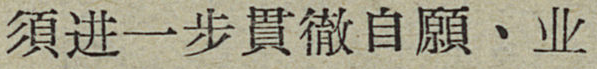須进一步貫徹自願、业
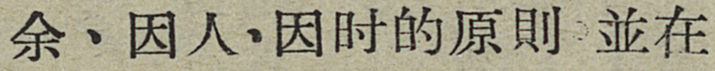余、因人、因时的原則並在
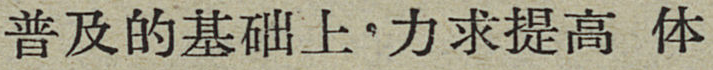普及的基础上，力求提高体
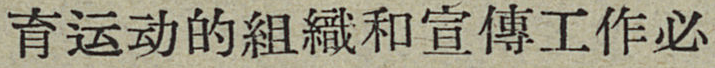育运动的組織和宣傳工作必
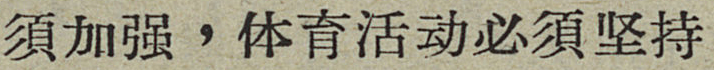須加强，体育活动必須坚持
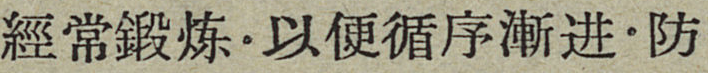經常鍛炼，以便循序漸进，防
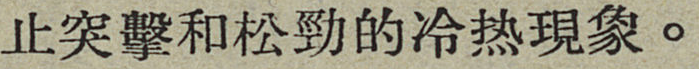止突擊和松勁的冷热現象。
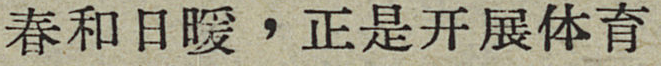春和日暖，正是开展体育
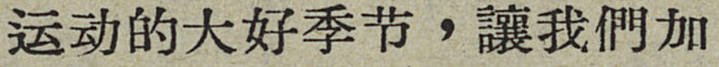运动的大好季节，讓我們加
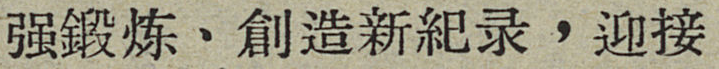强鍛炼、創造新紀录，迎接
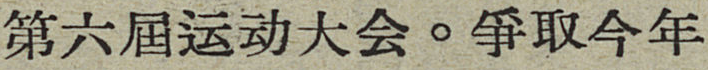第六屆运动大会。爭取今年
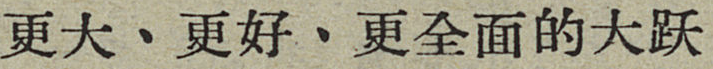更大、更好、更全面的大跃
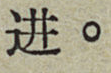进。
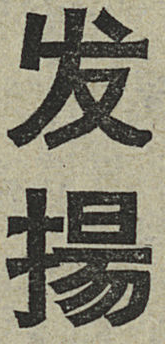发揚
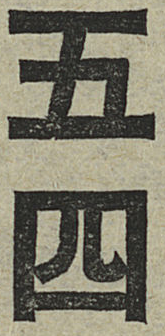五四
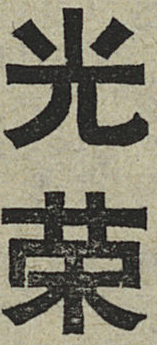光荣
